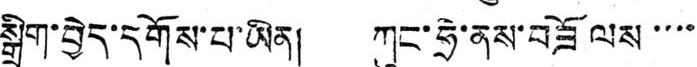སྒྲིག་བྱེད་དགོས་པ་ཡིན། ཀུང་ཧྲེ་ནས་བཟོ ལས་་་་
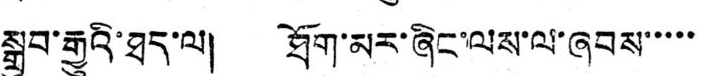སྒྲུབ་རྒྱུའི་ཐད་ལ། ཐོག་མར་ཞིང་ལས་ལ་ཞབས་་་་་
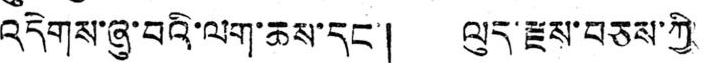འདེགས་ཞུ་བའི་ལག་ཆས་དང་། ལུད་རྫས་བཅས་ཀྱི
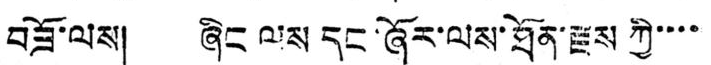བཟོ་ལས། ཞིང ལས དང་ཞོར་ལས་ཐོན་རྫས ཀྱི་་་་
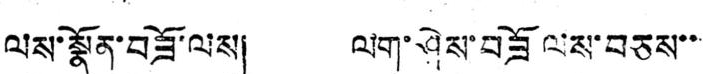ལས་སྣོན་བཟོ་ལས། ལག་ཤེས་བཟོ ལས་བཅས་་
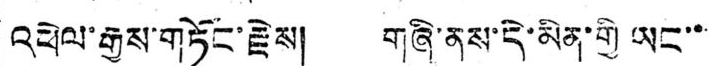འཕེལ་རྒྱས་གཏོང་རྗེས། གཞི་ནས་དེ་མིན་གྱི ཡང་་
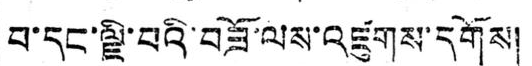བ་དང་ལྗི་བའི་བཟོ་ལས་འཛུགས་དགོས།
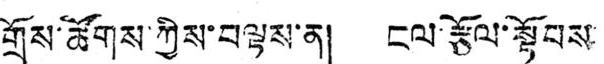གྲོས་ཚོགས་ཀྱིས་བལྟས་ན། ངལ་རྩོལ་སྟོབས་
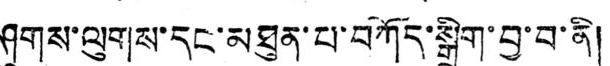ཤུགས་ལུགས་དང་མཐུན་པ་བཀོད་སྒྲིག་བྱ་བ་ནི།
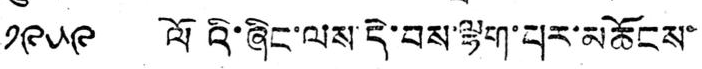༡༩༥༩ ལོའི་ཞིང་ལས་དེ་བས་ལྷག་པར་མཆོངས་
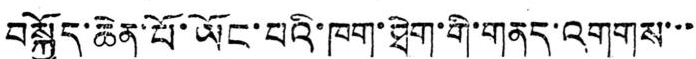བསྐྱོད་ཆེན་པོ་ཡོང་བའི་ཁག་ཐེག་གི་གནད་འགགས་་་
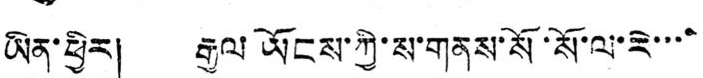ཡིན་ཕྱིར། རྒྱལ ཡོངས་ཀྱི་ས་གནས་སོ་སོ་ལ་རེ་་་་
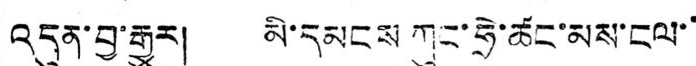འདུན་བྱ་རྒྱུར། མི་དམངས ཀུང་ཧྲེ་ཚང་མས་ངལ་་
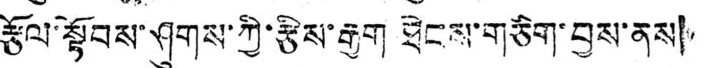རྩོལ་སྟོབས་ཤུགས་ཀྱི་རྩིས་རྒྱག ཐེངས་གཅིག་བྱས་ནས།
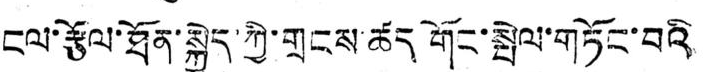ངལ་རྩོལ་ཐོན་སྐྱེད་ཀྱི་གྲངས་ཚད གོང་སྤེལ་གཏོང་བའི
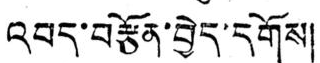འབད་བརྩོན་བྱེད་དགོས།
